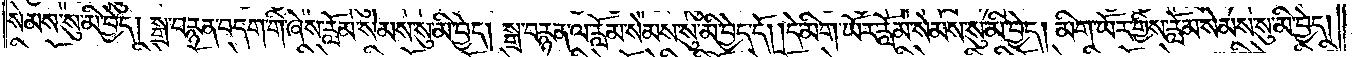སེམས་སུ་མི་བྱེད། སྒྲ་བརྙན་བདག་གི་ཞེས་རློམ་སེམས་སུ་མི་བྱེད། སྒྲ་བརྙན་ལ་རློམ་སེམས་སུ་མི་བྱེད་དོ། །དེ་མིག་ཡོར་རློམ་སེམས་སུ་མི་བྱེད། མིག་ཡོར་གྱིས་རློམ་སེམས་སུ་མི་བྱེད།
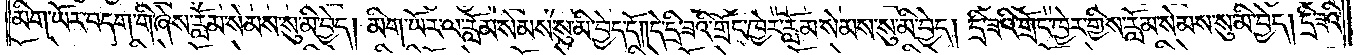མིག་ཡོར་བདག་གི་ཞེས་རློམ་སེམས་སུ་མི་བྱེད། མིག་ཡོར་ལ་རློམ་སེམས་སུ་མི་བྱེད་དོ། །དེ་དྲི་ཟའི་གྲོང་ཁྱེར་རློམ་སེམས་སུ་མི་བྱེད། དྲི་ཟའི་གྲོང་ཁྱེར་གྱིས་རློམ་སེམས་སུ་མི་བྱེད། དྲི་ཟའི་
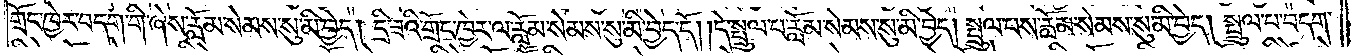གྲོང་ཁྱེར་བདག་གི་ཞེས་རློམ་སེམས་སུ་མི་བྱེད། དྲི་ཟའི་གྲོང་ཁྱེར་ལ་རློམ་སེམས་སུ་མི་བྱེད་དོ། །དེ་སྤྲུལ་པ་རློམ་སེམས་སུ་མི་བྱེད། སྤྲུལ་པས་རློམ་སེམས་སུ་མི་བྱེད། སྤྲུལ་པ་བདག་
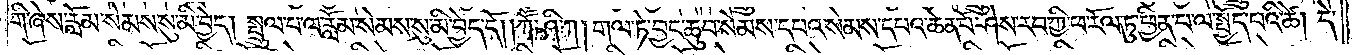གི་ཞེས་རློམ་སེམས་སུ་མི་བྱེད། སྤྲུལ་པ་ལ་རློམ་སེམས་སུ་མི་བྱེད་དོ། །ཀཽ་ཤི་ཀ། གལ་ཏེ་བྱང་ཆུབ་སེམས་དཔའ་སེམས་དཔའ་ཆེན་པོ་ཤེས་རབ་ཀྱི་ཕ་རོལ་ཏུ་ཕྱིན་པ་ལ་སྤྱོད་པའི་ཚེ། དེ་
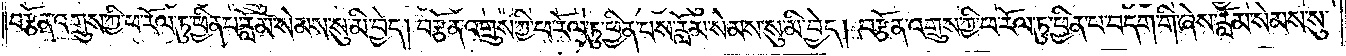བརྩོན་འགྲུས་ཀྱི་ཕ་རོལ་ཏུ་ཕྱིན་པ་རློམ་སེམས་སུ་མི་བྱེད། བརྩོན་འགྲུས་ཀྱི་ཕ་རོལ་ཏུ་ཕྱིན་པས་རློམ་སེམས་སུ་མི་བྱེད། བརྩོན་འགྲུས་ཀྱི་ཕ་རོལ་ཕྱིན་པ་བདག་གི་ཞེས་རློམ་སེམས་སུ་
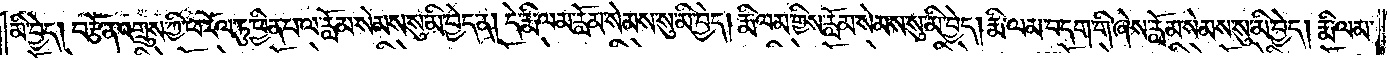མི་བྱེད། བརྩོན་འགྲུས་ཀྱི་ཕ་རོལ་ཏུ་ཕྱིན་པ་ལ་རློམ་སེམས་སུ་མི་བྱེད་ན། དེ་རྨི་ལམ་རློམ་སེམས་སུ་མི་བྱེད། རྨི་ལམ་གྱིས་རློམ་སེམས་སུ་མི་བྱེད། རྨི་ལམ་བདག་གི་ཞེས་རློམ་སེམས་སུ་མི་བྱེད། རྨི་ལམ་
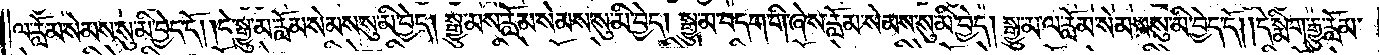ལ་རློམ་སེམས་སུ་མི་བྱེད་དོ། །དེ་སྒྱུ་མ་རློམ་སེམས་སུ་མི་བྱེད། སྒྱུ་མས་རློམ་སེམས་སུ་མི་བྱེད། སྒྱུ་མ་བདག་གི་ཞེས་རློམ་སེམས་སུ་མི་བྱེད། སྒྱུ་མ་ལ་རློམ་སེམས་སུ་མི་བྱེད་དོ། །དེ་སྨིག་རྒྱུ་རློམ་
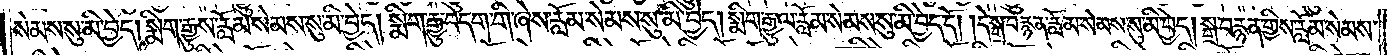སེམས་སུ་མི་བྱེད། སྨིག་རྒྱུས་རློམ་སེམས་སུ་མི་བྱེད། སྨིག་རྒྱུ་བདག་གི་ཞེས་རློམ་སེམས་སུ་མི་བྱེད། སྨིག་རྒྱུ་ལ་རློམ་སེམས་སུ་མི་བྱེད་དོ། །དེ་སྒྲ་བརྙན་རློམ་སེམས་སུ་མི་བྱེད། སྒྲ་བརྙན་གྱིས་རློམ་སེམས་
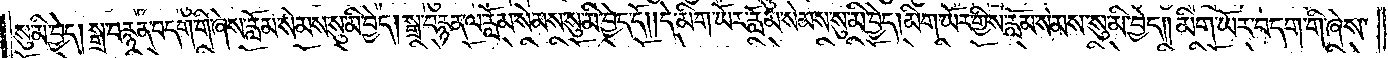སུ་མི་བྱེད། སྒྲ་བརྙན་བདག་གི་ཞེས་རློམ་སེམས་སུ་མི་བྱེད། སྒྲ་བརྙན་ལ་རློམ་སེམས་སུ་མི་བྱེད་དོ། །དེ་མིག་ཡོར་རློམ་སེམས་སུ་མི་བྱེད། མིག་ཡོར་གྱིས་རློམ་སེམས་སུ་མི་བྱེད། མིག་ཡོར་བདག་གི་ཞེས་
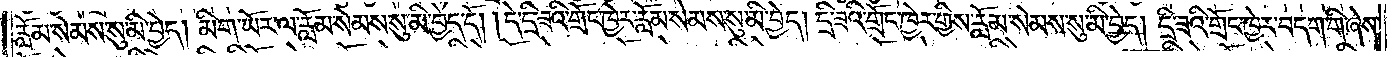རློམ་སེམས་སུ་མི་བྱེད། མིག་ཡོར་ལ་རློམ་སེམས་སུ་མི་བྱེད་དོ། །དེ་དྲི་ཟའི་གྲོང་ཁྱེར་རློམ་སེམས་སུ་མི་བྱེད། དྲི་ཟའི་གྲོང་ཁྱེར་གྱིས་རློམ་སེམས་སུ་མི་བྱེད། དྲི་ཟའི་གྲོང་ཁྱེར་བདག་གི་ཞེས་
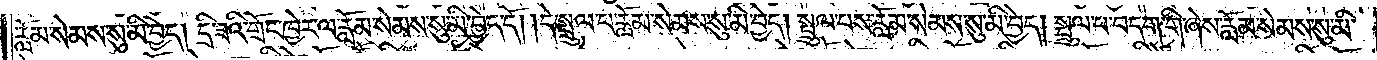རློམ་སེམས་སུ་མི་བྱེད། དྲི་ཟའི་གྲོང་ཁྱེར་ལ་རློམ་སེམས་སུ་མི་བྱེད་དོ། །དེ་སྤྲུལ་པ་རློམ་སེམས་སུ་མི་བྱེད། སྤྲུལ་པས་རློམ་སེམས་སུ་མི་བྱེད། སྤྲུལ་པ་བདག་གི་ཞེས་རློམ་སེམས་སུ་མི་
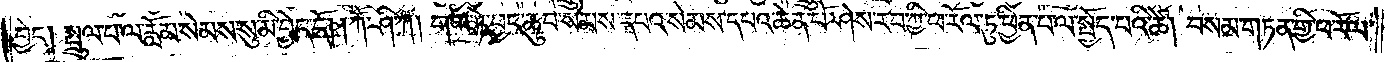བྱེད། སྤྲུལ་པ་ལ་རློམ་སེམས་སུ་མི་བྱེད་དོ། །ཀཽ་ཤི་ཀ། གལ་ཏེ་བྱང་ཆུབ་སེམས་དཔའ་སེམས་དཔའ་ཆེན་པོ་ཤེས་རབ་ཀྱི་ཕ་རོལ་ཏུ་ཕྱིན་པ་ལ་སྤྱོད་པའི་ཚེ། བསམ་གཏན་གྱི་ཕ་རོལ་
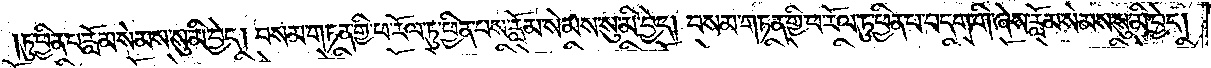ཏུ་ཕྱིན་པ་རློམ་སེམས་སུ་མི་བྱེད། བསམ་གཏན་གྱི་ཕ་རོལ་ཏུ་ཕྱིན་པས་རློམ་སེམས་སུ་མི་བྱེད། བསམ་གཏན་གྱི་ཕ་རོལ་ཏུ་ཕྱིན་པ་བདག་གི་ཞེས་རློམ་སེམས་སུ་མི་བྱེད།
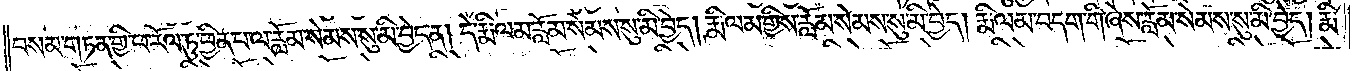བསམ་གཏན་གྱི་ཕ་རོལ་ཏུ་ཕྱིན་པ་ལ་རློམ་སེམས་སུ་མི་བྱེད་ན། དེ་རྨི་ལམ་རློམ་སེམས་སུ་མི་བྱེད། རྨི་ལམ་གྱིས་རློམ་སེམས་སུ་མི་བྱེད། རྨི་ལམ་བདག་གི་ཞེས་རློམ་སེམས་སུ་མི་བྱེད། རྨི་
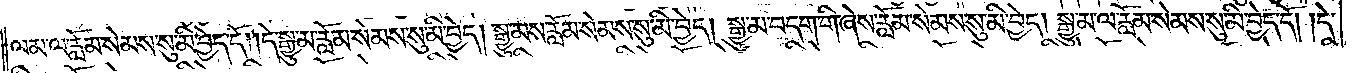ལམ་ལ་རློམ་སེམས་སུ་མི་བྱེད་དོ། །དེ་སྒྱུ་མ་རློམ་སེམས་སུ་མི་བྱེད། སྒྱུ་མས་རློམ་སེམས་སུ་མི་བྱེད། སྒྱུ་མ་བདག་གི་ཞེས་རློམ་སེམས་སུ་མི་བྱེད། སྒྱུ་མ་ལ་རློམ་སེམས་སུ་མི་བྱེད་དོ། །དེ་
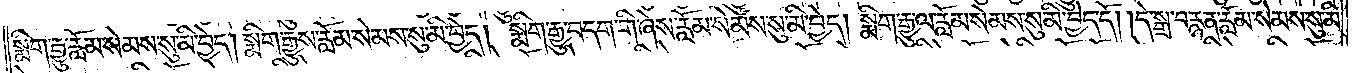སྨིག་རྒྱུ་རློམ་སེམས་སུ་མི་བྱེད། སྨིག་རྒྱུས་རློམ་སེམས་སུ་མི་བྱེད། སྨིག་རྒྱུ་བདག་གི་ཞེས་རློམ་སེམས་སུ་མི་བྱེད། སྨིག་རྒྱུ་ལ་རློམ་སེམས་སུ་མི་བྱེད་དོ། །དེ་སྒྲ་བརྙན་རློམ་སེམས་སུ་མི་
